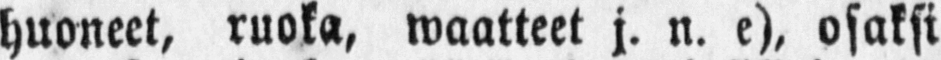huoneet, ruoka, waatteet j. n. e), osaksi
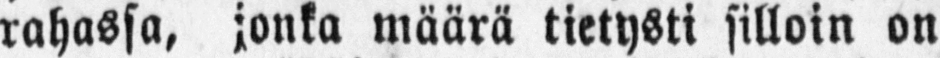rahassa, jonka määrä tietysti silloin on
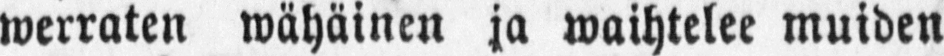werraten wähäinen ja waihtelee muiden
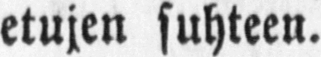etujen suhteen.
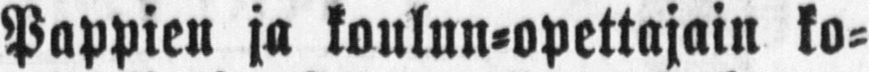Pappien ja koulun-opettajain ko-
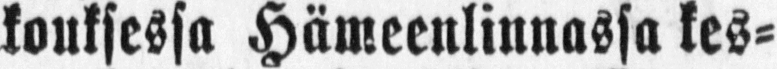kouksessa Hämeenlinnassa kes-
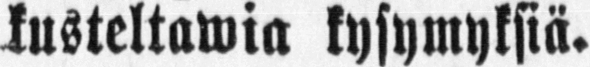kusteltawia kysymyksiä.
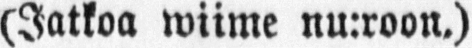(Jatkoa wiime nu:roon.)
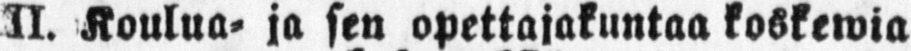II. Koulua- ja sen opettajakuntaa koskewia
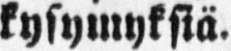kysymyksiä.
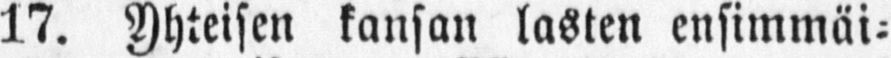17. Yhteisen kansan lasten ensimmäi-
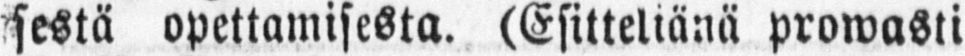sestä opettamisesta. (Esitteliänä prowasti
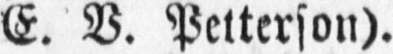E. V. Petterson).
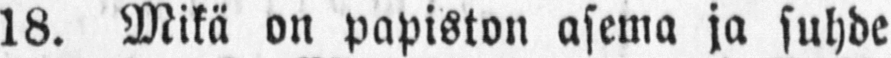18. Mikä on papiston asema ja suhde
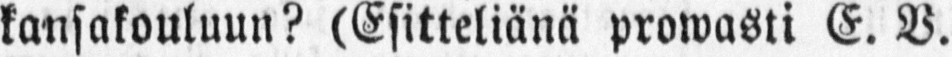kansakouluun? (Esitteliänä prowasti E. V.
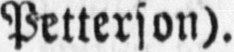Petterson).
